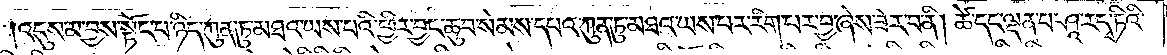འདུས་མ་བྱས་སྟོང་པ་ཉིད་ཀུན་ཏུ་མཐའ་ཡས་པའི་ཕྱིར་བྱང་ཆུབ་སེམས་དཔའ་ཀུན་ཏུ་མཐའ་ཡས་པར་རིག་པར་བྱ་ཞེས་ཟེར་བ་ནི། ཚེ་དང་ལྡན་པ་ཤཱ་ར་དྭ་ཏིའི་
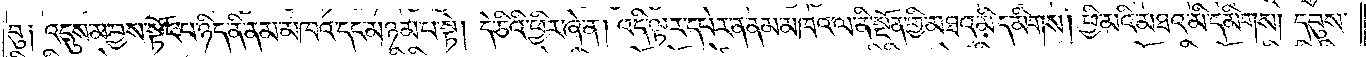བུ། འདུས་མ་བྱས་སྟོང་པ་ཉིད་ནི་ནམ་མཁའ་དང་མཉམ་པ་སྟེ། དེ་ཅིའི་ཕྱིར་ཞེ་ན། འདི་ལྟར་དཔེར་ན་ནམ་མཁའ་ལ་ནི་སྔོན་གྱི་མཐའ་མི་དམིགས། ཕྱི་མའི་མཐའ་མི་དམིགས། དབུས་
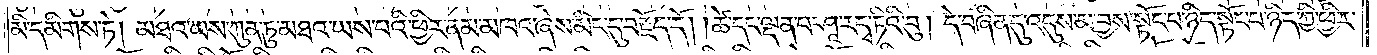མི་དམིགས་ཏེ། མཐའ་ཡས་ཀུན་ཏུ་མཐའ་ཡས་པའི་ཕྱིར་ནམ་མཁའ་ཞེས་མིང་དུ་བརྗོད་དོ། །ཚེ་དང་ལྡན་པ་ཤཱ་ར་དྭ་ཏིའི་བུ། དེ་བཞིན་དུ་འདུས་མ་བྱས་སྟོང་པ་ཉིད་སྟོང་པ་ཉིད་ཀྱི་ཕྱིར་
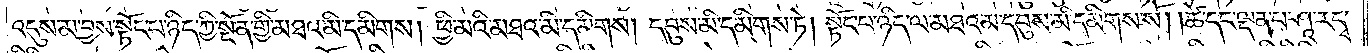འདུས་མ་བྱས་སྟོང་པ་ཉིད་ཀྱི་སྔོན་གྱི་མཐའ་མི་དམིགས། ཕྱི་མའི་མཐའ་མི་དམིགས། དབུས་མི་དམིགས་ཏེ། སྟོང་པ་ཉིད་ལ་མཐའམ་དབུས་མི་དམིགས་སོ། །ཚེ་དང་ལྡན་པ་ཤཱ་ར་དྭ་
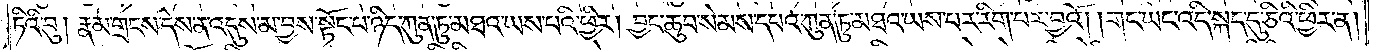ཏིའི་བུ། རྣམ་གྲངས་དེས་ན་འདུས་མ་བྱས་སྟོང་པ་ཉིད་ཀུན་ཏུ་མཐའ་ཡས་པའི་ཕྱིར། བྱང་ཆུབ་སེམས་དཔའ་ཀུན་ཏུ་མཐའ་ཡས་པར་རིག་པར་བྱའོ། །གང་ཡང་འདི་སྐད་དུ་ཅིའི་ཕྱིར་ན།
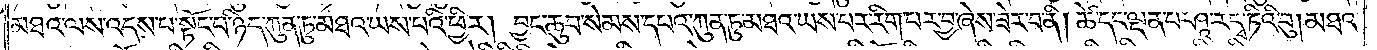མཐའ་ལས་འདས་པ་སྟོང་པ་ཉིད་ཀུན་ཏུ་མཐའ་ཡས་པའི་ཕྱིར། བྱང་ཆུབ་སེམས་དཔའ་ཀུན་ཏུ་མཐའ་ཡས་པར་རིག་པར་བྱ་ཞེས་ཟེར་བ་ནི། ཚེ་དང་ལྡན་པ་ཤཱ་ར་དྭ་ཏིའི་བུ། མཐའ་
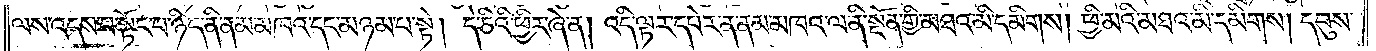ལས་འདས་པ་སྟོང་པ་ཉིད་ནི་ནམ་མཁའ་དང་མཉམ་པ་སྟེ། དེ་ཅིའི་ཕྱིར་ཞེ་ན། འདི་ལྟར་དཔེར་ན་ནམ་མཁའ་ལ་ནི་སྔོན་གྱི་མཐའ་མི་དམིགས། ཕྱི་མའི་མཐའ་མི་དམིགས། དབུས་
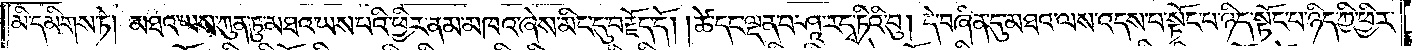མི་དམིགས་ཏེ། མཐའ་ཡས་ཀུན་ཏུ་མཐའ་ཡས་པའི་ཕྱིར་ནམ་མཁའ་ཞེས་མིང་དུ་བརྗོད་དོ༎ ཚེ་དང་ལྡན་པ་ཤཱ་ར་དྭ་ཏིའི་བུ། དེ་བཞིན་དུ་མཐའ་ལས་འདས་པ་སྟོང་པ་ཉིད་ཀྱི་ཕྱིར་
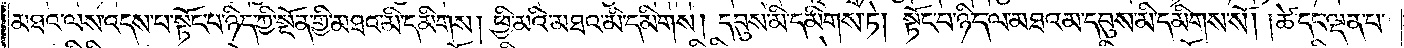མཐའ་ལས་འདས་པ་སྟོང་པ་ཉིད་ཀྱི་སྔོན་གྱི་མཐའ་མི་དམིགས། ཕྱི་མའི་མཐའ་མི་དམིགས། དབུས་མི་དམིགས་ཏེ། སྟོང་པ་ཉིད་ལ་མཐའམ་དབུས་མི་དམིགས་སོ། །ཚེ་དང་ལྡན་པ་
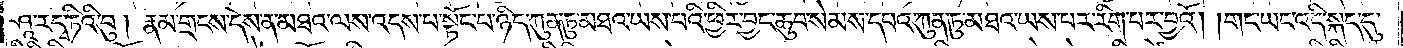ཤཱ་ར་དྭ་ཏིའི་བུ། རྣམ་གྲངས་དེས་ན་མཐའ་ལས་འདས་པ་སྟོང་པ་ཉིད་ཀུན་ཏུ་མཐའ་ཡས་པའི་ཕྱིར་བྱང་ཆུབ་སེམས་དཔའ་ཀུན་ཏུ་མཐའ་ཡས་པར་རིག་པར་བྱའོ། །གང་ཡང་འདི་སྐད་དུ་
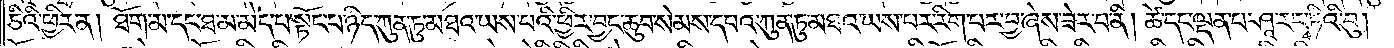ཅིའི་ཕྱིར་ན། ཐོག་མ་དང་ཐ་མ་མེད་པ་སྟོང་པ་ཉིད་ཀུན་ཏུ་མཐའ་ཡས་པའི་ཕྱིར་བྱང་ཆུབ་སེམས་དཔའ་ཀུན་ཏུ་མཐའ་ཡས་པར་རིག་པར་བྱ་ཞེས་ཟེར་བ་ནི། ཚེ་དང་ལྡན་པ་ཤཱ་ར་དྭ་ཏིའི་བུ།
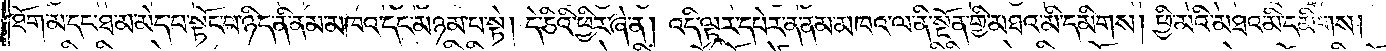ཐོག་མ་དང་ཐ་མ་མེད་པ་སྟོང་པ་ཉིད་ནི་ནམ་མཁའ་དང་མཉམ་པ་སྟེ། དེ་ཅིའི་ཕྱིར་ཞེ་ན། འདི་ལྟར་དཔེར་ན་ནམ་མཁའ་ལ་ནི་སྔོན་གྱི་མཐའ་མི་དམིགས། ཕྱི་མའི་མཐའ་མི་དམིགས།
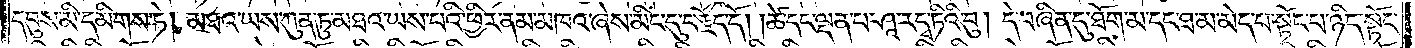དབུས་མི་དམིགས་ཏེ༑ མཐའ་ཡས་ཀུན་ཏུ་མཐའ་ཡས་པའི་ཕྱིར་ནམ་མཁའ་ཞེས་མིང་དུ་བརྗོད་དོ། །ཚེ་དང་ལྡན་པ་ཤཱ་ར་དྭ་ཏིའི་བུ། དེ་བཞིན་དུ་ཐོག་མ་དང་ཐ་མ་མེད་པ་སྟོང་པ་ཉིད་སྟོང་
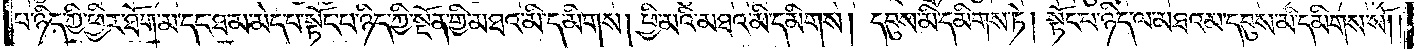པ་ཉིད་ཀྱི་ཕྱིར་ཐོག་མ་དང་ཐ་མ་མེད་པ་སྟོང་པ་ཉིད་ཀྱི་སྔོན་གྱི་མཐའ་མི་དམིགས། ཕྱི་མའི་མཐའ་མི་དམིགས། དབུས་མི་དམིགས་ཏེ། སྟོང་པ་ཉིད་ལ་མཐའམ་དབུས་མི་དམིགས་སོ།
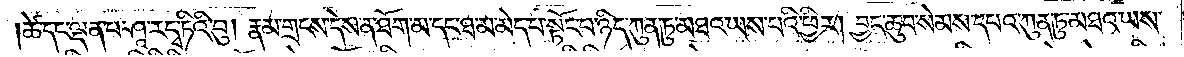ཚེ་དང་ལྡན་པ་ཤཱ་ར་དྭ་ཏིའི་བུ། རྣམ་གྲངས་དེས་ན་ཐོག་མ་དང་ཐ་མ་མེད་པ་སྟོང་པ་ཉིད་ཀུན་ཏུ་མཐའ་ཡས་པའི་ཕྱིར། བྱང་ཆུབ་སེམས་དཔའ་ཀུན་ཏུ་མཐའ་ཡས་
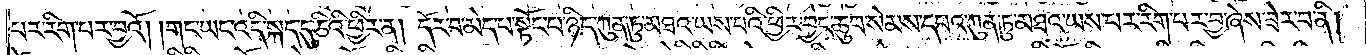པར་རིག་པར་བྱའོ། །གང་ཡང་འདི་སྐད་དུ་ཅིའི་ཕྱིར་ན། དོར་བ་མེད་པས་ཏོང་པ་ཉིད་ཀུན་ཏུ་མཐའ་ཡས་པའི་ཕྱིར་བྱང་ཆུབ་སེམས་དཔའ་ཀུན་ཏུ་མཐའ་ཡས་པར་རིག་པར་བྱ་ཞེས་ཟེར་བ་ནི།
